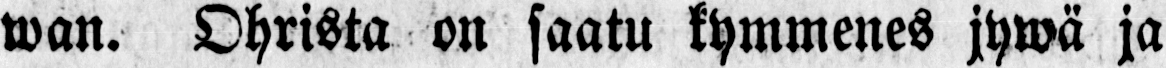wan. Ohrista on saatu kymmenes jyvä ja
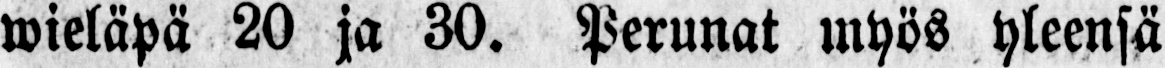wieläpä 20 ja 30. Perunat myös yleensä
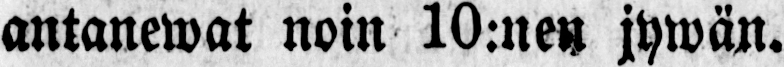antanewat noin 10:nen jywän.
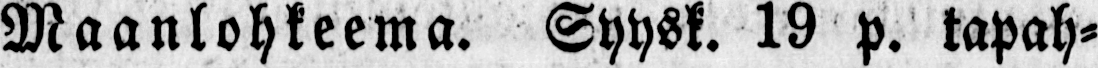Maanlohkeema. Syysk. 19 p. tapah-
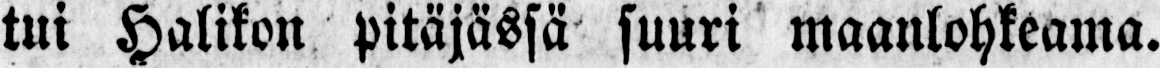tui Halikon pitäjässä suuri maanlohkeama.
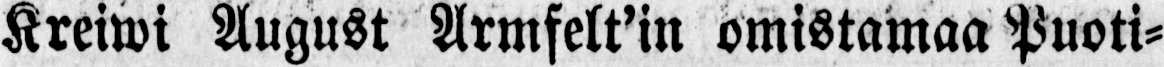Kreiwi August Armfelt'in omistamaa Puoti-
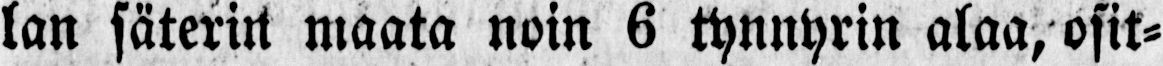lan säterin maata noin 6 tynnyrin alaa, osit-
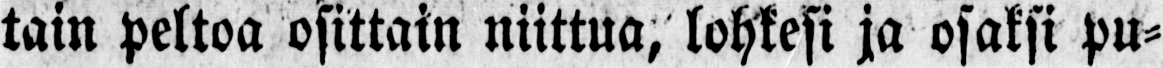tain peltoa osittain niittua, lohkesi ja osaksi pu-
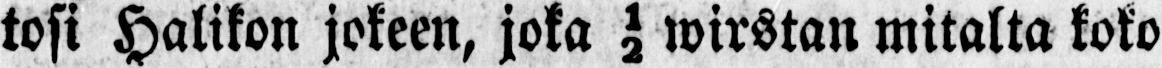tosi Halikon jokeen, joka ½ wirstan mitalta koko
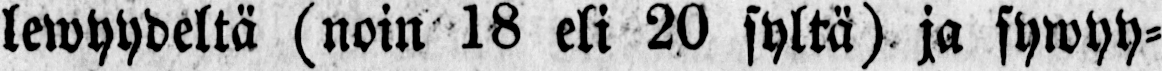lewyydeltä (noin 18 eli 20 syltä) ja sywyy-
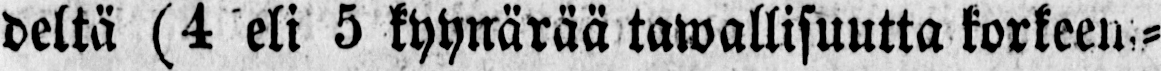deltä (4 eli 5 kyynärää tawallisuutta korkeen-
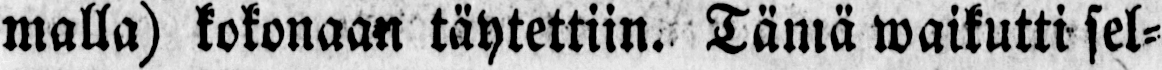malla) kokonaan täytettiin. Tämä waikutti sel-
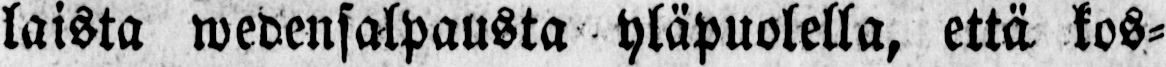laista wedensalpausta yläpuolella, että kos-
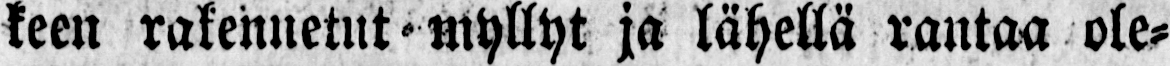keen rakennetut myllyt ja lähellä rantaa ole-
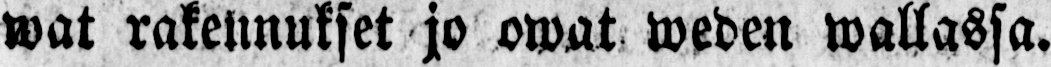wat rakennukset jo owat weden wallassa.
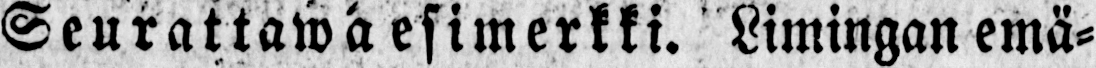Seurattawa esimerkki. Limingan emä-
